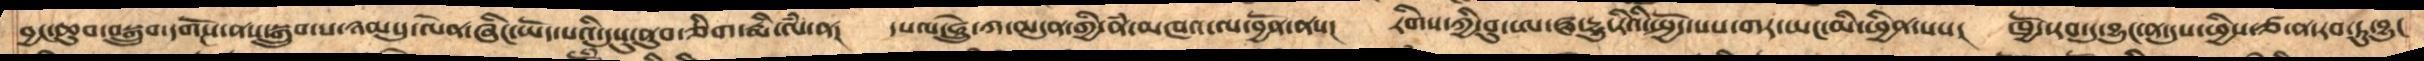བྱང་ཆུབ་བསྒྲུབ་དགོངས་ནས་སྒྲུབ་པ་ཉམསུ་ལེན་ཞིང་ཡོད་པའི་དུསུ་ནུབ་ཅིག་རྨི་ལཾ་ན།    དཔལ་ཧྲེུ་ཀ་མདུན་གྱི་ནཾ་མཁའ་ལ་བྱོན་ནས།  རིགས་ཀྱི་བུ་ཨ་ཝ་དྷུ་ཏིའི་སྤྱོད་པས་གར་ཡང་མི་ཕྱིན་པས།   ཁྱོད་རབ་དུ་བྱུང་ན་དུས་ཕྱིས་ཙ་ན་རབ་ཏུ་བྱུང
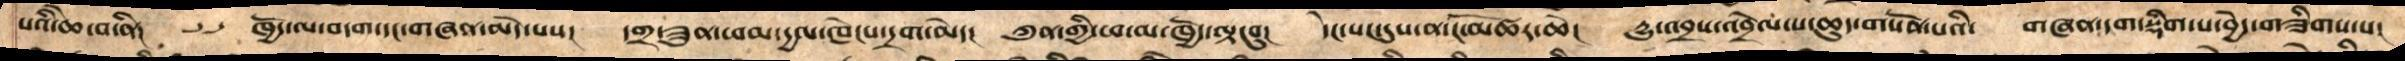པའི་ཆེ་བ་ནི། ༢༦ ཁྱོད་ལ་བདག་དང་གཞན་མེད་པས།  དགྲ་ཟུན་ཕམ་དྱལ་ཁེངས་དྲག་མེད།   ཀུན་གྱི་ཕ་མ་ཁྱོད་ལྟ་བུ།   དེང་སང་དུས་ན་ངོ་མཚར་ཆེ།   དྱུ་འབྲས་འབྲེལ་པ་ཆུད་གསོན་པའི།   གཞན་དག་སྡིག་པ་བྱེད་གཟིགས་པ།
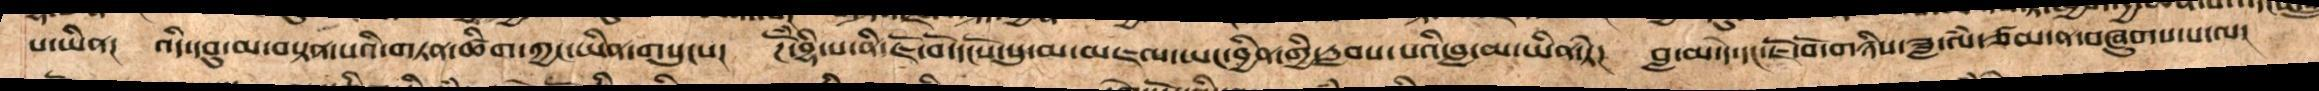པ་ཡིན།  འདི་དབུ་མ་བསྟན་པའི་གཏན་ཚིགས་ཀྱང་ཡིན་གསུངས།  ཌོཾ་བྷི་པ་ནི་ཇོ་བོ་དངོས་སུ་མ་མཇལ་ཡང་བྱིན་གྱི་རླབས་པའི་བླ་མ་ཡིན་ཏེ།   བླ་མ་དེ་དང་ཇོ་བོ་གཉིས་ཟླ་ལཾ་ཙམ་ན་བཞུགས་པ་ལ།
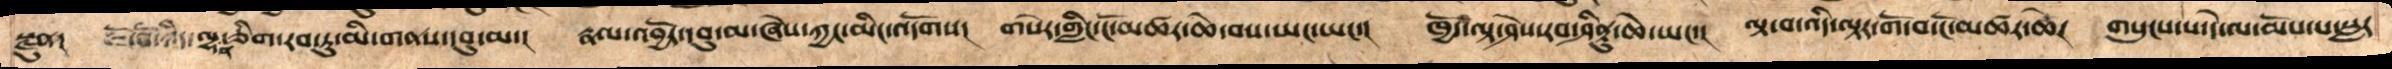སྫུན།  ཇོ་བོ་ཉིད་ལྷན་ཅིག་རབ་ཏུ་མི་གནས་དབུ་མ།   རྣལ་འབྱོར་དབུ་མ་ཞེས་ཀྱང་མིང་འདོགས།   གསེར་གླིང་ངོ་མཚར་ཆེ་བས་ཡང་ཡང་།   ཁྱོད་ལྟ་ཤེས་རབ་ཤིནྟུ་ཆེ་ཡང་།   ལྟ་བ་འདི་ལྟར་གོ་བ་ངོ་མཚར་ཆེ།   གསུངས་པ་དེ་ལ་མོས་པ་སླར
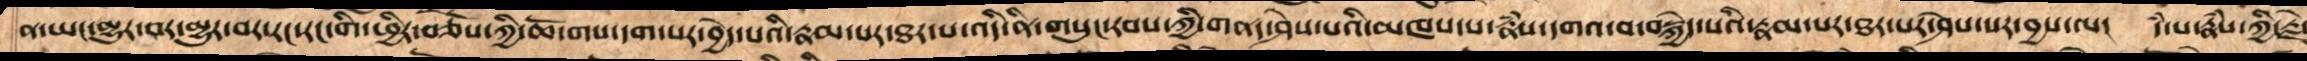ན་ཡང་མྱུར་བར་མྱུར་བར་རང་རང་གི་ཕྱིར་བཅོས་ཀྱི་ཆོ་གས་དག་པར་བྱེད་པའི་རྣམ་པར་ཐར་པ་འདི་ནི་གསུང་རབས་ཀྱི་གནད་ཤེས་པའི་མཁས་པ་རྣཾས་དགའ་བ་བསྐྱེད་པའི་རྣམ་པར་ཐར་པར་ཤེས་པར་བྱས་ལ།  དཾ་པ་རྣཾས་ཀྱི་རྗེ་
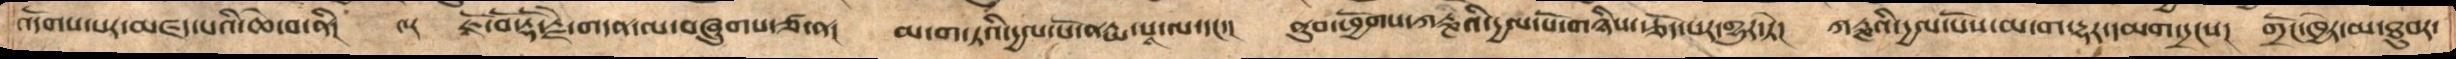འདོགས་པར་མཛད་པའི་ཆེ་བ་ནི།  ༤༨   ཇོ་བོ་རྡོ་རྗེ་གདན་ལ་བཞུགས་ཙ་ན།   མ་ག་ཏའི་དྱལ་པོ་ནརྱ་པཱ་ལ་དང་།    ནུབ་ཕྱོགས་ཀརྞའི་དྱལ་པོ་གཉིས་རྩོད་པར་གྱུར་ཏེ།    ཀརྞའི་དྱལ་པོས་མ་ག་དྷར་དམག་དྲངས།    གྲོང་ཁྱེར་མ་ཐུབར་
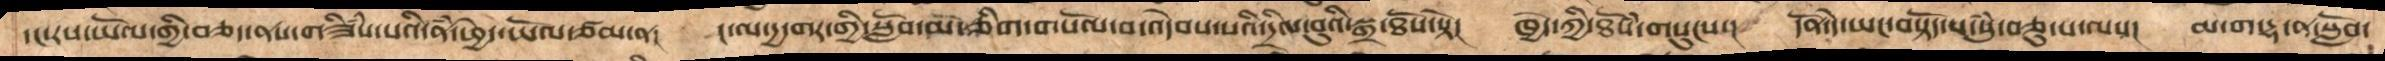དང་རས་ཡོལ་གྱི་བཅད་ནས་གཟིཾས་པའི་ནཾ་ཕྱེད་ཡོལ་ཙ་ན།   ང་ལ་དྱ་གར་སློབ་མོ་ཅིག་གསོལ་བ་འདེབས་པའི་དྲིལ་བུའི་སྒྲ་ཐོས་སྟེ།   ཁྱེད་ཀྱི་ཐོསཾ་གསུངས།  དོན་དེ་ཡང་བསྟོད་པ་སུཾ་བཅུ་པ་ལས།  མ་ག་དྷ་ན་སློབ་
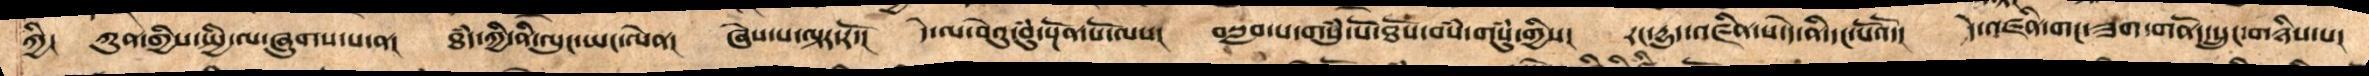ཀྱི།  ཀུན་གྱི་སྤྱི་ལ་བཞུགས་པ་ན།  ཐཾད་ཀྱི་ནི་ལུང་ཡང་ལེན།  ཞེས་པ་ལྟར་རོ་།  དེ་ལ་བེའུ་བུཾ་སྔོན་པོ་ལས།  བསླབ་པ་གསུཾ་པོ་ཐོས་བསཾ་གསུཾ་གྱིས།  རང་དྱུད་འཛིན་པ་དེ་ནི་དང་པོའོ་།  དེ་འཛིན་གང་ཟག་གནོད་སྲུང་གཉིས་པ།
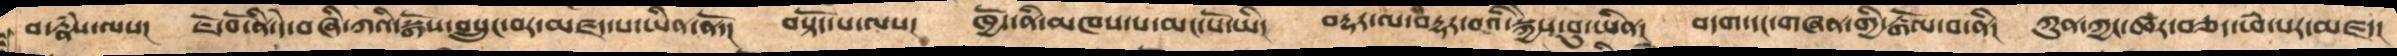བ་རྣཾས་ལས།   ཇོ་བོ་ནི་དེ་བཞི་ཀའི་སྒོས་བསྲུང་བར་མཛད་པ་ཡིན་ནོ་།   བསྟོད་པ་ལས།   ཁྱོད་ནི་མཁས་པ་མང་པོ་ཡི།   བརྡར་ལ་བརྡར་བའི་སྐྱེས་བུ་ཡིན།   བདག་དང་གཞན་གྱི་རྒོལ་བ་ནི།  ཀུན་ཀྱང་ཚར་བཅད་ཕཾ་པར་མཛད།
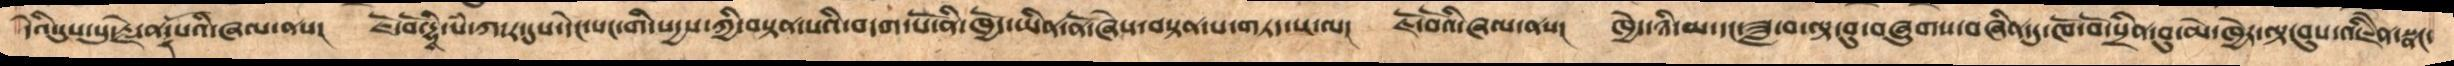དེའི་དུས་སུ་རྗེ་ནཱ་རོ་པའི་ཞལ་ནས།  ཇོ་བོ་དྷཱི་པཾ་ཀ་ར་དུས་དེང་སང་གི་སདྱས་ཀྱི་བསྟན་པའི་བདག་པོ་ནི་ཁྱོད་ཡིན་ནོ་ཞེས་བསྟན་པ་གཏད་པ་ལ།   ཇོ་བོའི་ཞལ་ནས།   ཁྱེད་ཉི་མ་དང་ཟླ་བ་ལྟ་བུ་བཞུགས་བཞིན་དུ་ཁོ་བོ་སྲིན་བུ་མེ་ཁྱེར་ལྟ་བུས་འཇིནེ་སྣང་
